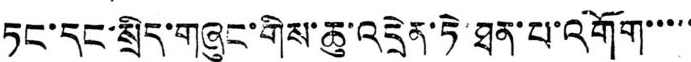ཏང་དང་སྲིད་གཞུང་གིས་ཆུ་འདྲེན་ཏེ་ཐན་པ་འགོག་་་་་
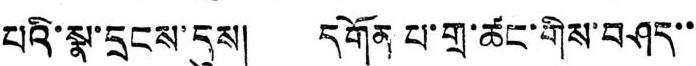པའི་སྣ་དྲངས་དུས། དགོན པ་གྲ་ཚང་གིས་བཤད་་
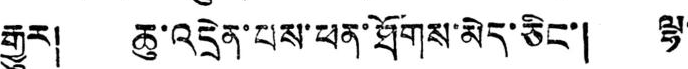རྒྱུར། ཆུ་འདྲེན་པས་ཕན་ཐོགས་མེད་ཅིང་། ལྷ་
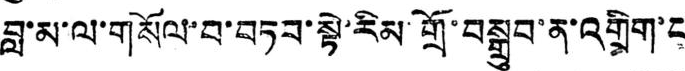བླ་མ་ལ་གསོལ་བ་བཏབ་སྟེ་རིམ་གྲོ་བསྒྲུབ་ན་འགྲིག་པ
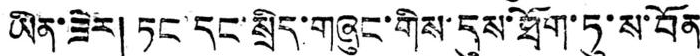ཡིན་ཟེར། ཏང་དང་སྲིད་གཞུང་གིས་དུས་ཐོག་ཏུ་ས་བོན
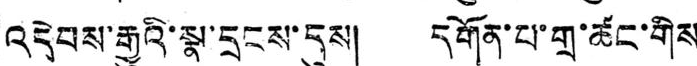འདེབས་རྒྱུའི་སྣ་དྲངས་དུས། དགོན་པ་གྲ་ཚང་གིས
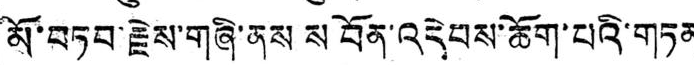མོ་བཏབ་རྗེས་གཞི་ནས ས བོན་འདེབས་ཆོག་པའི་གཏན
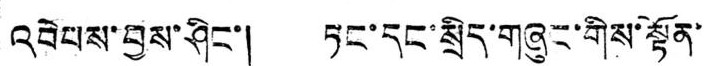འབེབས་བྱས་ཤིང་། ཏང་དང་སྲིད་གཞུང་གིས་སྟོན་
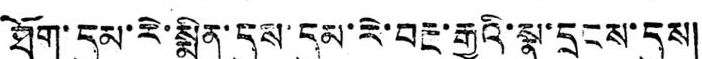ཐོག་དུམ་རེ་སྨིན་དུས་དུམ་རེ་བརྔ་རྒྱུའི་སྣ་དྲངས་དུས།
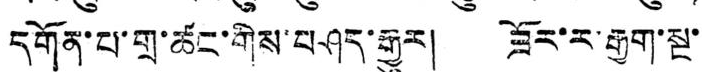དགོན་པ་གྲ་ཚང་གིས་བཤད་རྒྱུར། ཟོར་ར་རྒྱག་སྔ་
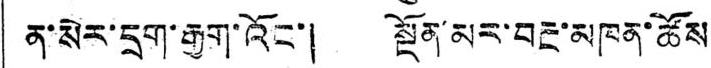ན་སེར་དྲག་རྒྱག་འོང་། སྔོན་མར་བརྔ་མཁན་ཚོས་
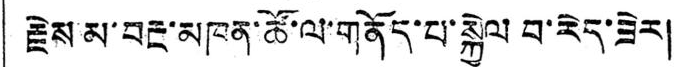རྗེས་མ་བརྔ་མཁན་ཚོ་ལ་གནོད་པ་སྐྱེལ བ་རེད་ཟེར།
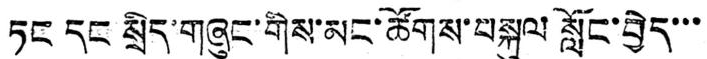ཏང དང སྲིད་གཞུང་གིས་མང་ཚོགས་བསྐུལ སློང་བྱེད་་་
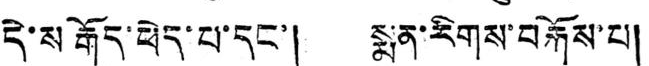དེ་ས རྒོད་ཕེད་པ་དང་། སྨན་རིགས་བསྐོས་པ།
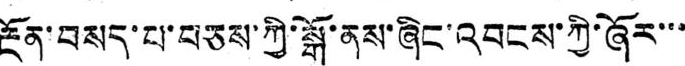རྔོན་བསད་པ་བཅས་ཀྱི་སྒོ་ནས་ཞིང་འབངས་ཀྱི་ཞོར་་་
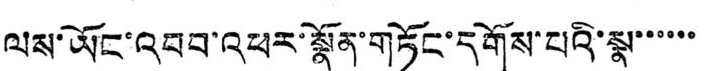ལས་ཡོང་འབབ་འཕར་སྣོན་གཏོང་དགོས་པའི་སྣ་་་་་་
